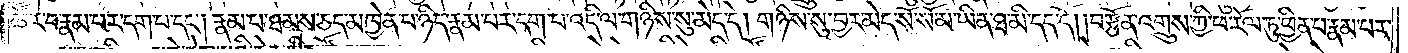ཚོར་པ་རྣམ་པར་དག་པ་དང༌། རྣམ་པ་ཐམས་ཅད་མཁྱེན་པ་ཉིད་རྣམ་པར་དག་པ་འདི་ལ་གཉིས་སུ་མེད་དེ། གཉིས་སུ་བྱར་མེད་སོ་སོ་མ་ཡིན་ཐ་མི་དད་དོ། །བརྩོན་འགྲུས་ཀྱི་ཕ་རོལ་ཏུ་ཕྱིན་པ་རྣམ་པར་
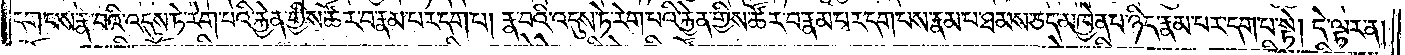དག་པས་རྣ་བའི་འདུས་ཏེ་རེག་པའི་རྐྱེན་གྱིས་ཚོར་བ་རྣམ་པར་དག་པ། རྣ་བའི་འདུས་ཏེ་རེག་པའི་རྐྱེན་གྱིས་ཚོར་བ་རྣམ་པར་དག་པས་རྣམ་པ་ཐམས་ཅད་མཁྱེན་པ་ཉིད་རྣམ་པར་དག་པ་སྟེ། དེ་ལྟར་ན།
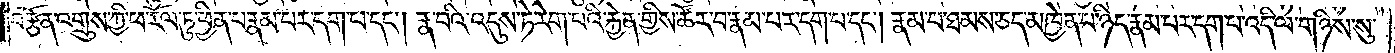བརྩོན་འགྲུས་ཀྱི་ཕ་རོལ་ཏུ་ཕྱིན་པ་རྣམ་པར་དག་པ་དང༌། རྣ་བའི་འདུས་ཏེ་རེག་པའི་རྐྱེན་གྱིས་ཚོར་བ་རྣམ་པར་དག་པ་དང༌། རྣམ་པ་ཐམས་ཅད་མཁྱེན་པ་ཉིད་རྣམ་པར་དག་པ་འདི་ལ་གཉིས་སུ་
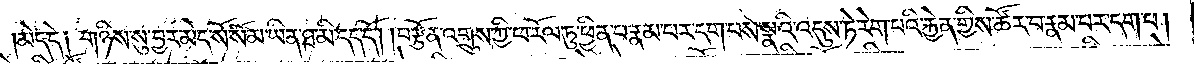མེད་དེ༑ གཉིས་སུ་བྱར་མེད་སོ་སོ་མ་ཡིན་ཐ་མི་དད་དོ། །བརྩོན་འགྲུས་ཀྱི་ཕ་རོལ་ཏུ་ཕྱིན་པ་རྣམ་པར་དག་པས་སྣའི་འདུས་ཏེ་རེག་པའི་རྐྱེན་གྱིས་ཚོར་བ་རྣམ་པར་དག་པ།
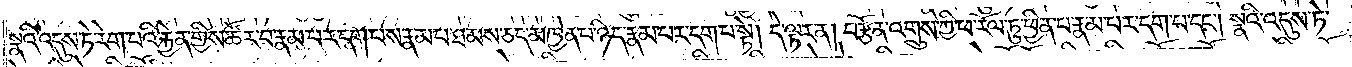སྣའི་འདུས་ཏེ་རེག་པའི་རྐྱེན་གྱིས་ཚོར་བ་རྣམ་པར་དག་པས་རྣམ་པ་ཐམས་ཅད་མཁྱེན་པ་ཉིད་རྣམ་པར་དག་པ་སྟེ། དེ་ལྟར་ན། བརྩོན་འགྲུས་ཀྱི་ཕ་རོལ་ཏུ་ཕྱིན་པ་རྣམ་པར་དག་པ་དང༌། སྣའི་འདུས་ཏེ་
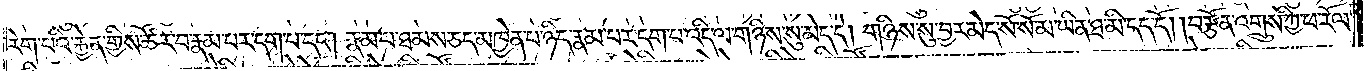རེག་པའི་རྐྱེན་གྱིས་ཚོར་བ་རྣམ་པར་དག་པ་དང༌། རྣམ་པ་ཐམས་ཅད་མཁྱེན་པ་ཉིད་རྣམ་པར་དག་པ་འདི་ལ་གཉིས་སུ་མེད་དེ། གཉིས་སུ་བྱར་མེད་སོ་སོ་མ་ཡིན་ཐ་མི་དད་དོ། །བརྩོན་འགྲུས་ཀྱི་ཕ་རོལ་
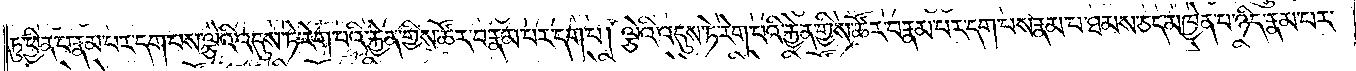ཏུ་ཕྱིན་པ་རྣམ་པར་དག་པས་ལྕེའི་འདུས་ཏེ་རེག་པའི་རྐྱེན་གྱིས་ཚོར་བ་རྣམ་པར་དག་པ། ལྕེའི་འདུས་ཏེ་རེག་པའི་རྐྱེན་གྱིས་ཚོར་བ་རྣམ་པར་དག་པས་རྣམ་པ་ཐམས་ཅད་མཁྱེན་པ་ཉིད་རྣམ་པར་
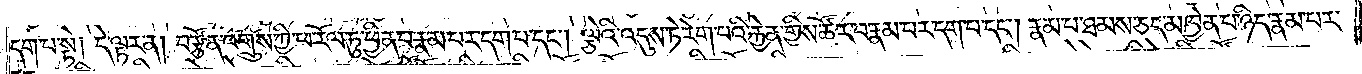དག་པ་སྟེ༑ དེ་ལྟར་ན། བརྩོན་འགྲུས་ཀྱི་ཕ་རོལ་ཏུ་ཕྱིན་པ་རྣམ་པར་དག་པ་དང༌། ལྕེའི་འདུས་ཏེ་རེག་པའི་རྐྱེན་གྱིས་ཚོར་བ་རྣམ་པར་དག་པ་དང༌། རྣམ་པ་ཐམས་ཅད་མཁྱེན་པ་ཉིད་རྣམ་པར་
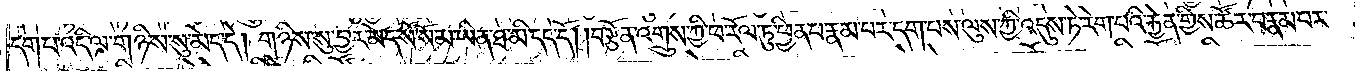དག་པ་འདི་ལ་གཉིས་སུ་མེད་དེ། གཉིས་སུ་བྱར་མེད་སོ་སོ་མ་ཡིན་ཐ་མི་དད་དོ། །བརྩོན་འགྲུས་ཀྱི་ཕ་རོལ་ཏུ་ཕྱིན་པ་རྣམ་པར་དག་པས་ལུས་ཀྱིས་འདུས་ཏེ་རེག་པའི་རྐྱེན་གྱིས་ཚོར་བ་རྣམ་པར་
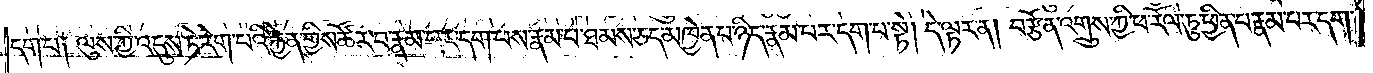དག་པ༑ ལུས་ཀྱི་འདུས་ཏེ་རེག་པའི་རྐྱེན་གྱིས་ཚོར་བ་རྣམ་པར་དག་པས་རྣམ་པ་ཐམས་ཅད་མཁྱེན་པ་ཉིད་རྣམ་པར་དག་པ་སྟེ། དེ་ལྟར་ན། བརྩོན་འགྲུས་ཀྱི་ཕ་རོལ་ཏུ་ཕྱིན་པ་རྣམ་པར་དག་
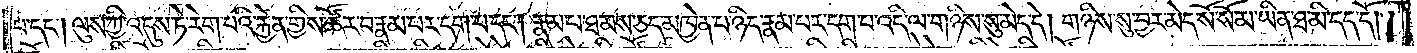པ་དང༌། ལུས་ཀྱི་འདུས་ཏེ་རེག་པའི་རྐྱེན་གྱིས་ཚོར་བ་རྣམ་པར་དག་པ་དང༌། རྣམ་པ་ཐམས་ཅད་མཁྱེན་པ་ཉིད་རྣམ་པར་དག་པ་འདི་ལ་གཉིས་སུ་མེད་དེ། གཉིས་སུ་བྱར་མེད་སོ་སོ་མ་ཡིན་ཐ་མི་དད་དོ། །
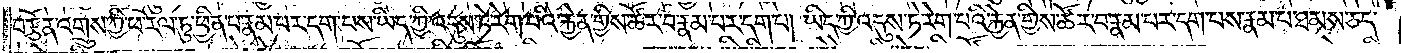བརྩོན་འགྲུས་ཀྱི་ཕ་རོལ་ཏུ་ཕྱིན་པ་རྣམ་པར་དག་པས་ཡིད་ཀྱི་འདུས་ཏེ་རེག་པའི་རྐྱེན་གྱིས་ཚོར་བ་རྣམ་པར་དག་པ། ཡིད་ཀྱི་འདུས་ཏེ་རེག་པའི་རྐྱེན་གྱིས་ཚོར་བ་རྣམ་པར་དག་པས་རྣམ་པ་ཐམས་ཅད་
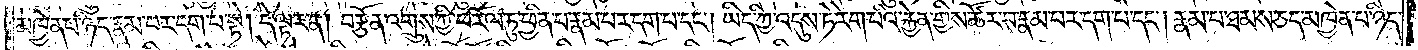མཁྱེན་པ་ཉིད་རྣམ་པར་དག་པ་སྟེ། དེ་ལྟར་ན། བརྩོན་འགྲུས་ཀྱི་ཕ་རོལ་ཏུ་ཕྱིན་པ་རྣམ་པར་དག་པ་དང༌། ཡིད་ཀྱི་འདུས་ཏེ་རེག་པའི་རྐྱེན་གྱིས་ཚོར་བ་རྣམ་པར་དག་པ་དང༌། རྣམ་པ་ཐམས་ཅད་མཁྱེན་པ་ཉིད་
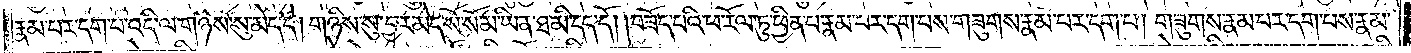རྣམ་པར་དག་པ་འདི་ལ་གཉིས་སུ་མེད་དེ། གཉིས་སུ་བྱར་མེད་སོ་སོ་མ་ཡིན་ཐ་མི་དད་དོ། །བཟོད་པའི་ཕ་རོལ་ཏུ་ཕྱིན་པ་རྣམ་པར་དག་པས་གཟུགས་རྣམ་པར་དག་པ། གཟུགས་རྣམ་པར་དག་པས་རྣམ་
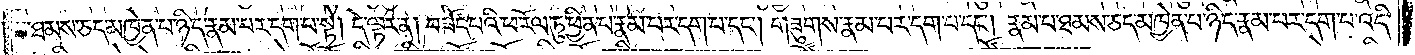པ་ཐམས་ཅད་མཁྱེན་པ་ཉིད་རྣམ་པར་དག་པ་སྟེ། དེ་ལྟར་ན་བཟོད་པའི་ཕ་རོལ་ཏུ་ཕྱིན་པ་རྣམ་པར་དག་པ་དང༌། གཟུགས་རྣམ་པར་དག་པ་དང༌། རྣམ་པ་ཐམས་ཅད་མཁྱེན་པ་ཉིད་རྣམ་པར་དག་པ་འདི་
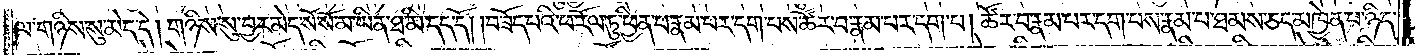ལ་གཉིས་སུ་མེད་དེ། གཉིས་སུ་བྱར་མེད་སོ་སོ་མ་ཡིན་ཐ་མི་དད་དོ། །བཟོད་པའི་ཕ་རོལ་ཏུ་ཕྱིན་པ་རྣམ་པར་དག་པས་ཚོར་བ་རྣམ་པར་དག་པ། ཚོར་བ་རྣམ་པར་དག་པས་རྣམ་པ་ཐམས་ཅད་མཁྱེན་པ་ཉིད་
